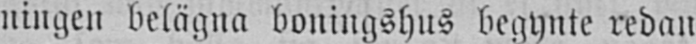ningen belägna boningshus begynte redan
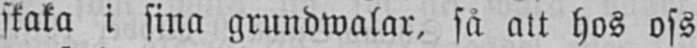skaka i sina grundwalar, så att hos oss
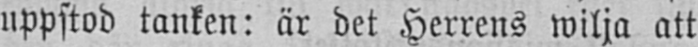uppstod tanken: är det Herrens wilja att
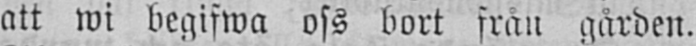att wi begifwa oss bort från gården.
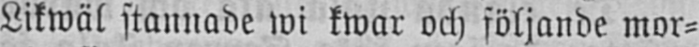Likwäl stannade wi kwar och följande mor-
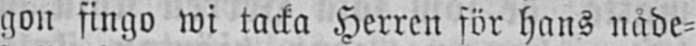gon fingo wi tacka Herren för hans nåde-
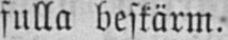fulla beskärm.
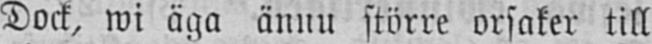Dock, wi äga ännu större orsaker till
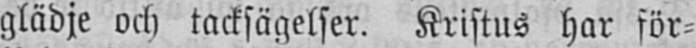glädje och tacksägelser. Kristus har för-
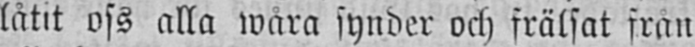låtit oss alla wåra synder och frälsat från
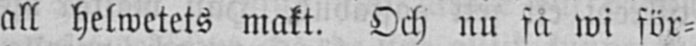all helwetets makt. Och nu få wi för-
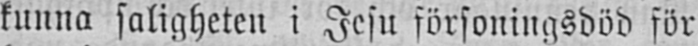kunna saligheten i Jesu försoningsdöd för
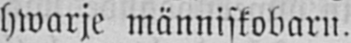hwarje människobarn.
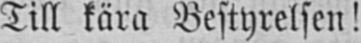Till kära Bestyrelsen!
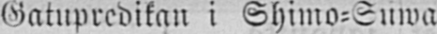Gatupredikan i Shimo-Suwa.
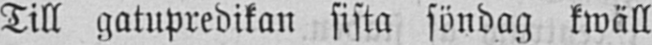Till gatupredikan sista söndag kwäll
